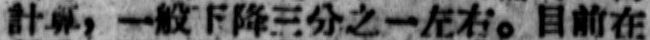計算，一般下降三分之一左右。目前在
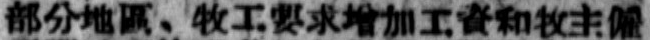部分地區、牧工要求增加工資和牧主僱
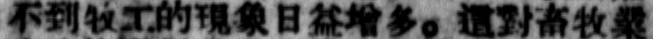不到牧工的現象日益增多。這對畜牧業
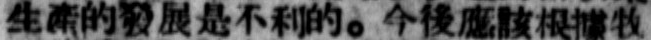生產的發展是不利的。今後應該根據牧
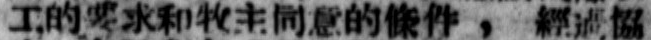工的要求和牧主同意的條件 ， 經過協
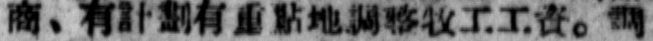商、有計劃有重點地調整牧工工資。調
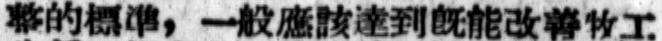整的標準，一般應該達到既能改善牧工
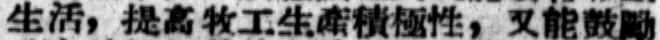生活，提高牧工生產積極性，又能鼓勵
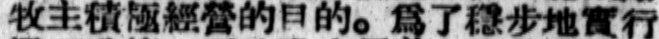牧主積極經營的目的。爲了穩步地實行
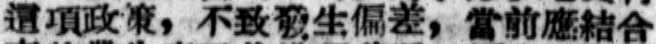這項政策，不致發生偏差，當前應結合
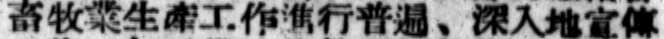畜牧業生產工作進行普遍、深入地宣傳
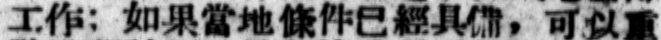工作；如果當地條件已經具備，可以重
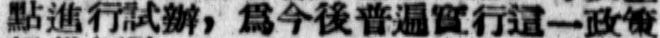點進行試辦，爲今後普遍實行這一政策
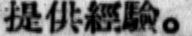提供經驗。
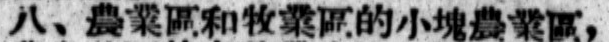八、農業區和牧業區的小塊農業區，
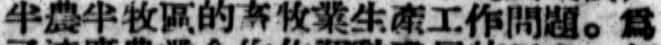半農半牧區的畜牧業生產工作問題。爲
